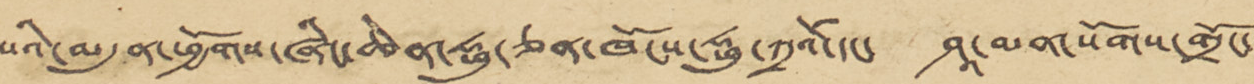སའི་མདུན་ཕྱོགས་ཞིང་ཆེན་ཧྥུ་ཅན་ཁོངས་ཧྥུ་ཀྲའོ་དང་ ཤཱ་མན་སོགས་གྲོང་་
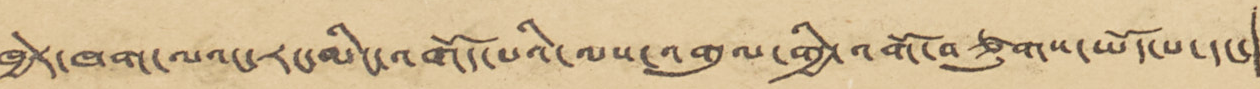ཁྱེར་ཁག་ལའང་རང་མིང་འགོད་པའི་ལས་འགུལ་གྱི་འགོ་བཙུགས་ཡོད་པ་དང་།
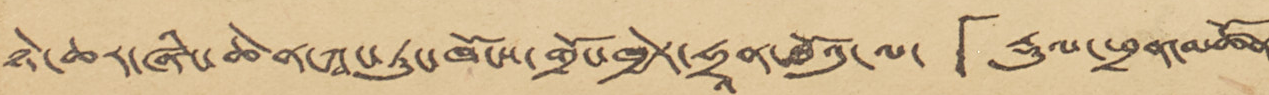ཉེ་ཆར་ཞིང་ཆེན་ཀྭང་ཏུང་ཁོངས་གྲོང་ཁྱེར་ཧྲྭན་ཐོའུ་ལ་ 「རྡུལ་ཕྲན་མཚོན་
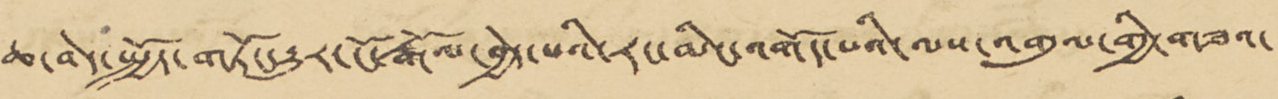ཆ་བེད་སྤྱོད་གཏོང་རྒྱུར་ངོ་རྒོལ་བྱེད་པའི་རང་མིང་འགོད་པའི་ལས་འགུལ་གྱི་གཟའ་
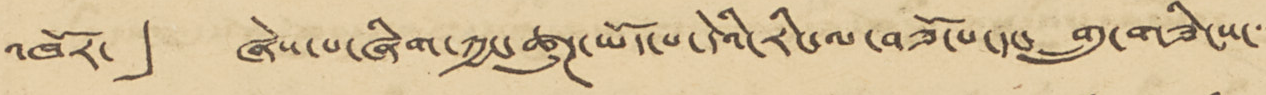འཁོར་」 ཞེས་པ་ཞིག་ཀྱང་ཚུཊ་ཡོད་པ་དེའི་རིང་ལ་བཟོ་པ་དང་ གྲུ་གཟིངས་་་
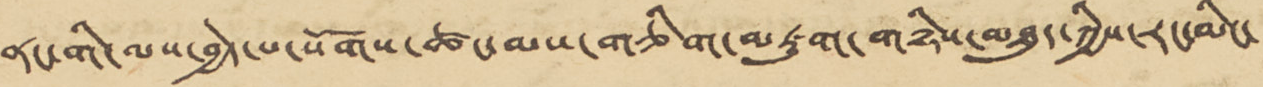ནང་གི་ལས་བྱེད་པ་སོགས་ཚང་མས་གཅིག་མཇུག་གཉིས་མཐུད་ཀྱིས་རང་མིང་
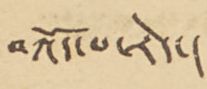བཀོད་པ་རེད་།
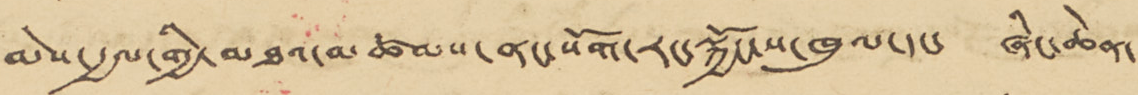མེས་རྒྱལ་གྱི་མཐའ་མཚམས་ནང་སོག་རང་སྐྱོང་ས་ཁུལ་དང་ ཞིང་ཆེན་
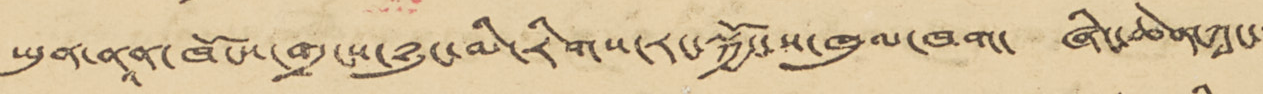ཡུན་ནཱན་ཁོངས་གྲངས་ཉུང་མི་རིགས་རང་སྐྱོང་ས་ཁུལ་ཁག་ ཞིང་ཆེན་ཀཱང་་
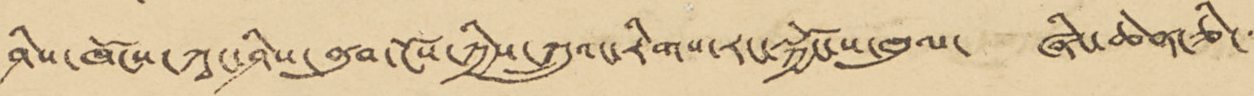ཤིས་ཁོངས་ཀྭང་ཤིས་ནུབ་ངོས་ཀྱིས་ཀྲུའང་རིགས་རང་སྐྱོང་ས་ཁུལ་ ཞིང་ཆེན་ཅི་་་
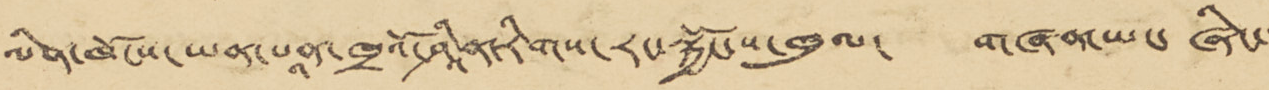ལིན་ཁོངས་ཡན་པཱན་ཁྲའོ་ཤཱིན་རིགས་རང་སྐྱོང་ས་ཁུལ་ གཞན་ཡང་ ཞིང་་
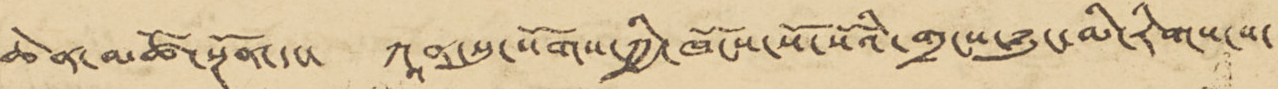ཆེན་མཚོ་སྔོན་དང་ ཀཱན་སུ་སོགས་ཀྱི་ཁོངས་སོ་སོའི་གྲངས་ཉུང་མི་རིགས་ས་
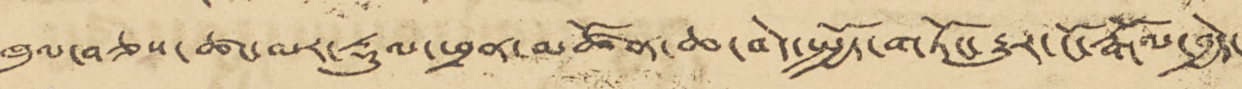ཁུལ་བཅས་ཚང་མར་རྡུལ་ཕྲན་མཚོན་ཆ་བེད་སྤྱོད་གཏོང་རྒྱུར་ངོ་རྒོལ་བྱེད་
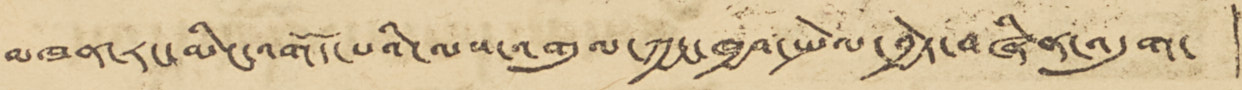མཁན་རང་མིང་འགོད་པའི་ལས་འགུལ་ཀྱང་ཁྱབ་སྤེལ་བྱེད་བཞིན་འདུག་ །
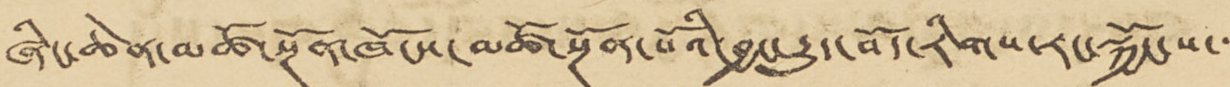ཞིང་ཆེན་མཚོ་སྔོན་ཁོངས་མཚོ་སྔོན་པོའི་བྱང་རྒྱུད་བོད་རིགས་རང་སྐྱོང་ས་་་
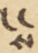ས
